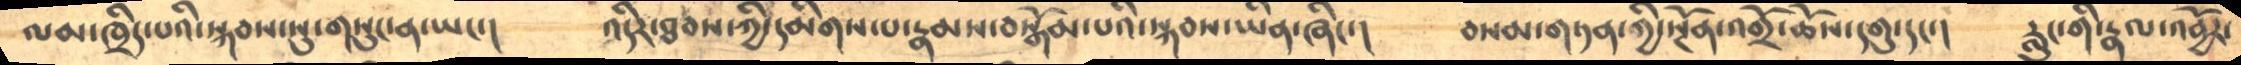ལམ་ཁྲིད་པའི་སྐབས་སུ་གསུང་ན་ཡང་།      འདིར་ཐབས་ཀྱི་དམིགས་པ་རྣམས་བསྒོམ་པའི་སྐབས་ཡིན་ཞིང་།    བསམ་གཏན་གྱི་སྔོན་འགྲོ་ཆོས་དགུ་དང་།   རླུང་གི་རྣལ་འབྱོར་
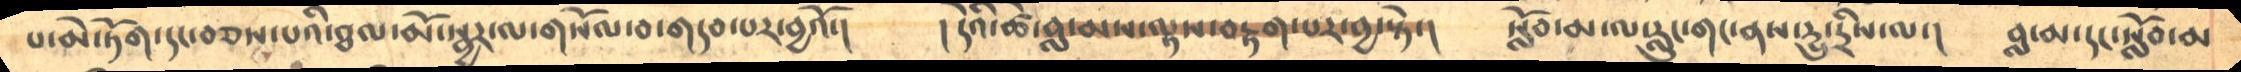པ་མེ་ཏོག་དང་བཅས་པའི་ཐལ་མོ་སྦྱར་ལ་གསོལ་བ་གདབ་པར་བྱའོ་།     །དེའི་ཚེ་བླ་མས་ལྟས་བརྟག་པར་བྱ་སྟེ་།    སློབ་མ་ལ་རླུང་གང་ནས་དྱུ་དྲིས་ལ་།    བླ་མ་དང་སློབ་མ
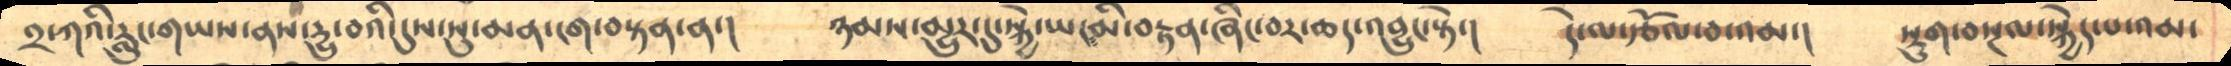༢་ཀའི་རླུང་གཡས་ནས་དྱུ་བའི་དུས་སུ་མན་ངག་བསྟན་ན་།     ཉམས་མྱུར་དུ་སྐྱེ་ཡང་མི་བརྟན་ཞིང་བར་ཆད་འབྱུང་སྟེ་།    དེ་ལ་རྩོལ་བ་འམ་།    སྡུག་བསྔལ་སྐྱེད་པ་འམ་
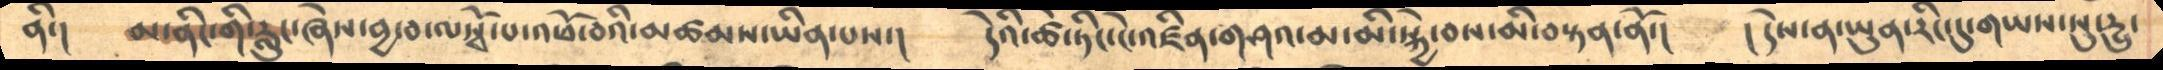ནི་།    མ་ནིང་གི་རླུང་ཞེས་བྱ་བ་ལསྭོ་པ་འཕོ་བའི་མཚམས་ཡིན་པས་།      དེའི་ཚེ་ཏིང་ངེ་འཛིན་གཤའ་མ་མི་སྐྱེ་བས་མི་བསྟན་ནོ་།    །དེས་ན་ཡུན་རིང་དུ་གཡས་སུ་དྱུ་
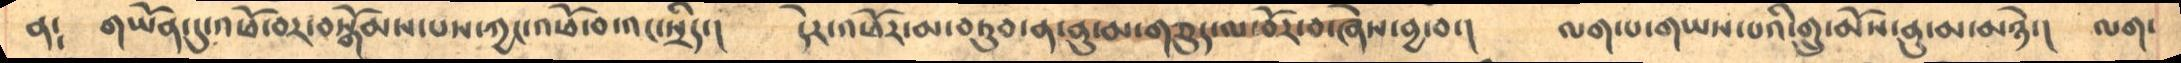ན༴   གཡོན་དུ་འཕོ་བར་བསྒོམས་པས་ཀྱང་འཕོ་བ་འང་སྲིད་།      དེར་འཕོར་མ་བཏུབ་ན་ནུ་མ་གཅུད་ལ་བོར་བ་ཞེས་བྱ་བ་།   ལག་པ་གཡས་པའི་གྲུ་མོས་ནུ་མ་མཉེ་།  ལག་
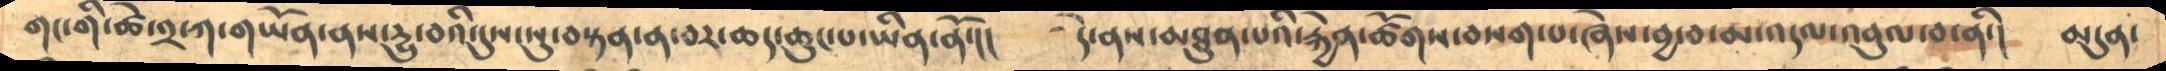གང་གི་ཚེ་༢་ཀ་གཡོན་ནས་དྱུ་བའི་དུས་སུ་བསྟན་ན་བར་ཆད་ཆུང་པ་ཡིན་ནོ་།།      དེ་ནས་མཐུན་པའི་རྐྱེན་ཚོགས་བསག་པ་ཞེས་བྱ་བ་མ་འདལ་འབུལ་བ་ནི་།      མདུན་
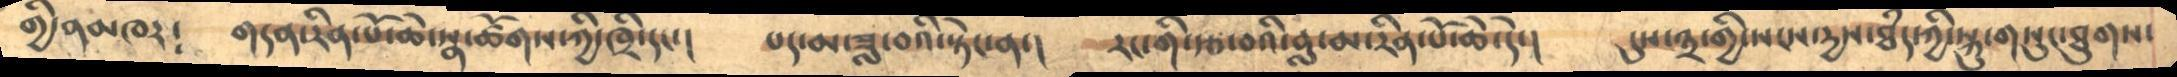གྱི་ནམཁར༴   གདན་རིན་པོ་ཆེ་སྣ་ཚོགས་ཀྱི་ཁྲི་དང་།     པད་མ་ཟླ་བའི་སྟེང་ན་།    རང་གི་རྩ་བའི་བླ་མ་རིན་པོ་ཆེ་དེ་།    དུས་༣་གྱི་སངས་དྱས་ཐཾད་ཀྱི་སྐུ་གསུང་ཐུགས་
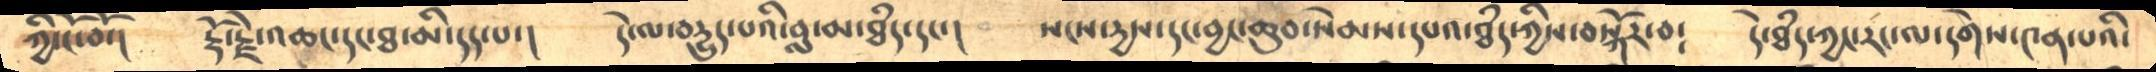ཀྱི་ངོ་བོ་།    རྡོ་རྗེ་འཆང་དང་ཐ་མི་དད་པ་།    དེ་ལ་བདྱུད་པའི་བླ་མ་ཐཾད་དང་།      སངས་དྱས་དང་བྱང་ཆུབ་སེམས་དཔའ་ཐཾད་ཀྱིས་བསྐོར་བ༴     དེ་ཐཾད་ཀྱང་རང་ལ་དགེས་༤ན་པའི་
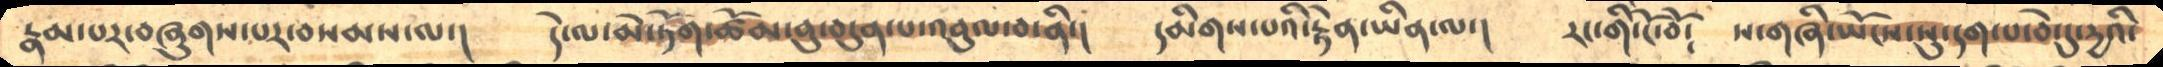རྣམ་པར་བཞུགས་པར་བསམས་ལ་།       དེ་ལ་མེ་ཏོག་ཚོམ་བུ་བདུན་པ་འབུལ་བ་ནི་།     དམིགས་པའི་རྟེན་ཡིན་ལ་།    རང་གི་ངོ་བོ༴     ས་གཞི་ཡོངས་སུ་དག་པ་བེ་དུ་དྱའི་
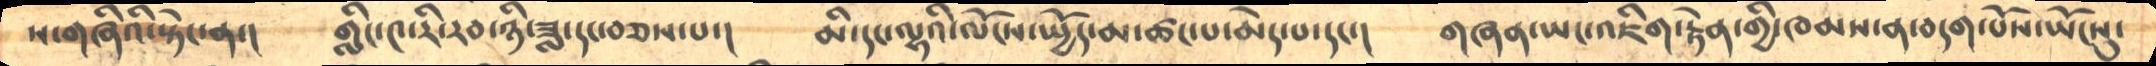ས་གཞིའི་སྟེང་ན་།      གླིང་༤་རི་རབ་ཉི་ཟླ་དང་བཅས་པ་།      མི་དང་ལྷའི་ལོངས་སྤྱོད་མ་ཚང་པ་མེད་པ་དང་།     གཞན་ཡང་འཇིག་རྟེན་གྱི་ཁམས་ན་བདག་པོས་ཡོངསུ་
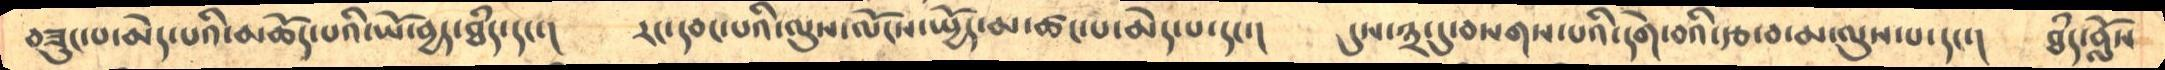བཟུང་པ་མེད་པའི་མཆོད་པའི་ཡོ་བྱད་ཐཾད་དང་།      རང་དབང་པའི་ལུས་ལོངས་སྤྱོད་མ་ཚང་པ་མེད་པ་དང་།      དུས་༣་དུ་བསགས་པའི་དགེ་བའི་རྩ་བ་མ་ལུས་པ་དང་།     ཐཾད་བློས
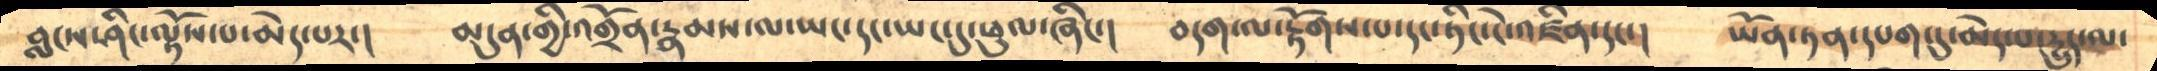བླངས་ཤིང་ལྟོས་པ་མེད་པར་།      མདུན་གྱི་འགྲོན་རྣམས་ལ་ཡང་དང་ཡང་དུ་ཕུལ་ཞིང་།    བདག་ལ་རྟོགས་པ་དང་ཏིང་ངེ་འཛིན་དང་།     ཡོན་ཏན་དཔག་དུ་མེད་པ་དྱུད་ལ་
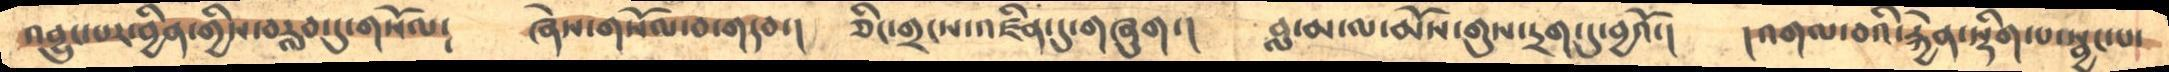འབྱུང་པར་བྱིན་གྱིས་བརླབ་དུ་གསོལ༴      ཞེས་གསོལ་བ་གདབ་།     ཅིང་གྲངས་འཛིན་དུ་གཞུག་།    བླ་མ་ལ་མོས་གུས་དྲག་དུ་བྱའོ་།     །འགལ་བའི་རྐྱེན་སྡིག་པ་སྦྱང་པ་
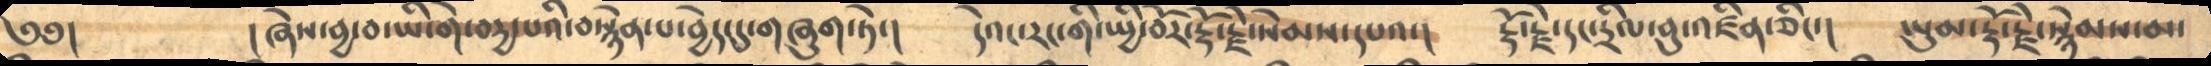༄༅།      །ཞེས་བྱ་བ་ཡི་གེ་བདྱ་པའི་བསྙེན་པ་བྱེད་དུ་གཞུག་ཏེ་།       དེའང་རང་གི་སྤྱི་བོར་རྡོ་རྗེ་སེམས་དཔའ་།    རྡོ་རྗེ་དང་དྲིལ་བུ་འཛིན་ཅིང་།     ཡུམ་རྡོ་རྗེ་སྙེམས་མ་
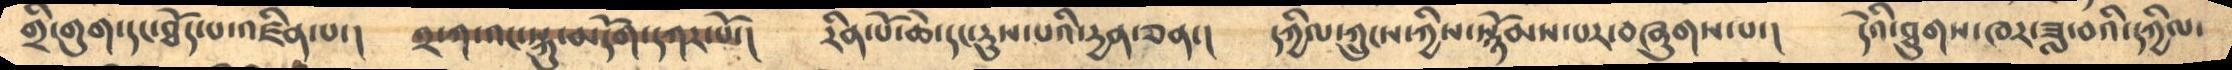གྲི་གུག་དང་ཐོད་པ་འཛིན་པ་།     ༢་ཀ་འང་སྐུ་མདོག་དཀར་པོ་།     རིན་པོ་ཆེ་དང་རུས་པའི་དྱན་ཅན་།   དཀྱིལ་ཀྲུངས་ཀྱིས་སྙོམས་པར་བཞུགས་པ་།   དེའི་ཐུགས་ཁར་ཟླ་བའི་དཀྱིལ་
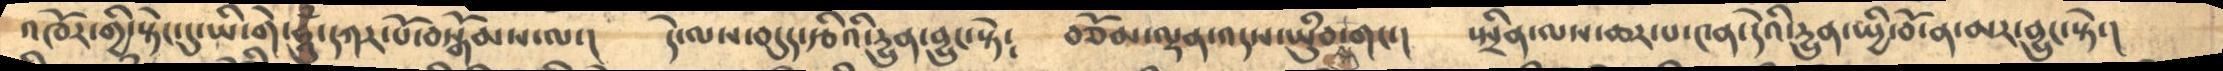འཁོར་གྱི་སྟེང་དུ་ཡི་གེ་ཧཱུཾ་དཀར་པོ་བསྒོམས་ལ་།     དེ་ལས་བདུད་རྩིའི་དྱུན་བྱུང་སྟེ༴   བཅོམ་ལྡན་འདས་ཡུཾབ་གང་།    སྤྲིན་ལས་ཆར་པ་༤ན་དེའི་དྱུན་སྤྱི་བོ་ན་མར་བྱུང་སྟེ་།
